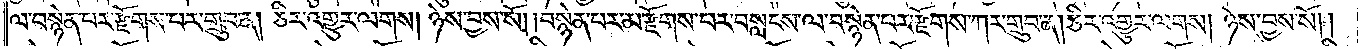ལ་བསྙེན་པར་རྫོགས་པར་གྲུབ་ན། ཅིར་འགྱུར་ལགས། ཉེས་བྱས་སོ། །བསྙེན་པར་མ་རྫོགས་པར་བསླངས་ལ་བསྙེན་པར་རྫོགས་ཀར་གྲུབ་ན། ཅིར་འགྱུར་ལགས། ཉེས་བྱས་སོ། །
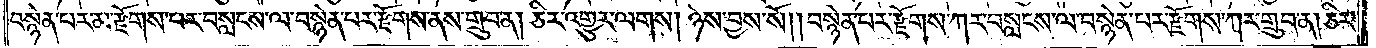བསྙེན་པར་མ་རྫོགས་པར་བསླངས་ལ་བསྙེན་པར་རྫོགས་ནས་གྲུབ་ན། ཅིར་འགྱུར་ལགས། ཉེས་བྱས་སོ། །བསྙེན་པར་རྫོགས་ཀར་བསླངས་ལ་བསྙེན་པར་རྫོགས་ཀར་གྲུབ་ན། ཅིར་
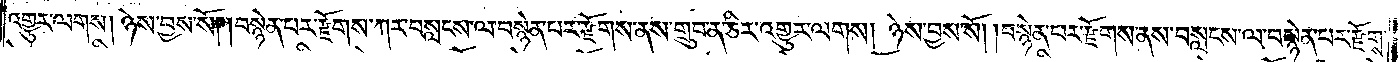འགྱུར་ལགས། ཉེས་བྱས་སོ། །བསྙེན་པར་རྫོགས་ཀར་བསླངས་ལ་བསྙེན་པར་རྫོགས་ནས་གྲུབ་ན་ཅིར་འགྱུར་ལགས། ཉེས་བྱས་སོ། །བསྙེན་པར་རྫོགས་ནས་བསླངས་ལ་བསྙེན་པར་རྫོགས་
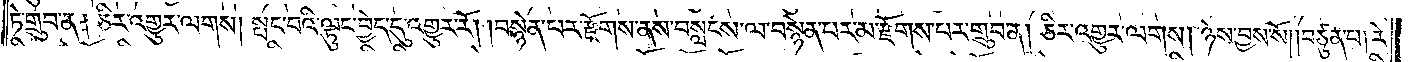ཏེ་གྲུབ་ན། ཅིར་འགྱུར་ལགས། སྤང་བའི་ལྟུང་བྱེད་དུ་འགྱུར་རོ། །བསྙེན་པར་རྫོགས་ནས་བསླངས་ལ་བསྙེན་པར་མ་རྫོགས་པར་གྲུབ་ན། ཅིར་འགྱུར་ལགས། ཉེས་བྱས་སོ། །བཙུན་པ། རེ་
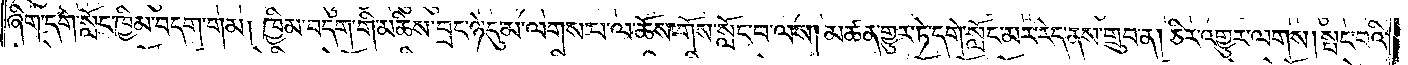ཞིག་དགེ་སློང་ཁྱིམ་བདག་གམ། ཁྱིམ་བདག་གི་མཆིས་བྲང་ཉེ་དུ་མ་ལགས་པ་ལ་ཆོས་གོས་སློང་བ་ལས། མཚན་གྱུར་ཏེ་དགེ་སློང་མར་རེད་ནས་གྲུབ་ན། ཅིར་འགྱུར་ལགས། སྤང་བའི་
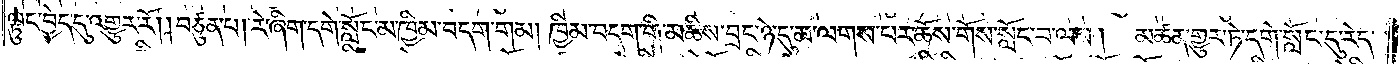ལྟུང་བྱེད་དུ་འགྱུར་རོ། །བཙུན་པ། རེ་ཞིག་དགེ་སློང་མ་ཁྱིམ་བདག་གམ། ཁྱིམ་བདག་གི་མཆིས་བྲང་ཉེ་དུ་མ་ལགས་པར་ཆོས་གོས་སློང་བ་ལས། མཚན་གྱུར་ཏེ་དགེ་སློང་དུ་རེད་
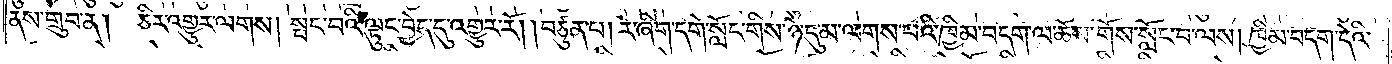ནས་གྲུབ་ན། ཅིར་འགྱུར་ལགས། སྤང་བའི་ལྟུང་བྱེད་དུ་འགྱུར་རོ། །བཙུན་པ། རེ་ཞིག་དགེ་སློང་གིས་ཉེ་དུ་མ་ལགས་པའི་ཁྱིམ་བདག་ལ་ཆོས་གོས་སློང་བ་ལས། ཁྱིམ་བདག་དེའི་
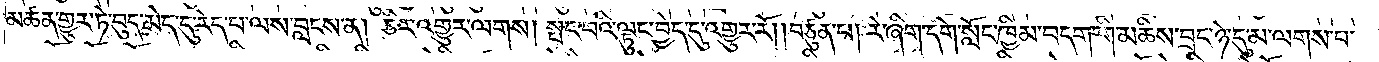མཚན་གྱུར་ཏེ་བུད་མེད་དུ་རེད་པ་ལས་བླངས་ན། ཅིར་འགྱུར་ལགས། སྤང་བའི་ལྟུང་བྱེད་དུ་འགྱུར་རོ། །བཙུན་པ། རེ་ཞིག་དགེ་སློང་ཁྱིམ་བདག་གི་མཆིས་བྲང་ཉེ་དུ་མ་ལགས་པ་
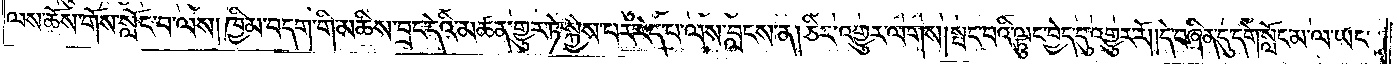ལས་ཆོས་གོས་སློང་བ་ལས། ཁྱིམ་བདག་གི་མཆིས་བྲང་དེའི་མཚན་གྱུར་ཏེ་སྐྱེས་པར་རེད་པ་ལས་བླངས་ན། ཅིར་འགྱུར་ལགས། སྤང་བའི་ལྟུང་བྱེད་དུ་འགྱུར་རོ། །དེ་བཞིན་དུ་དགེ་སློང་མ་ལ་ཡང་
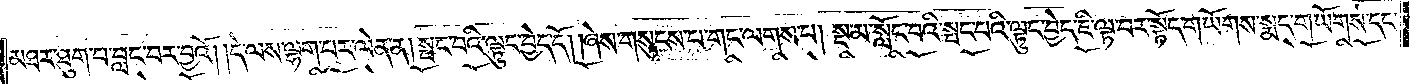མཐར་ཐུག་པ་བླང་བར་བྱའོ། །དེ་ལས་ལྷག་པར་ལེན་ན། སྤང་བའི་ལྟུང་བྱེད་དོ། །ཞེས་གསུངས་པ་གང་ལགས་པ། སྔ་མ་སློང་བའི་སྤང་པའི་ལྟུང་བྱེད་ཇི་ལྟ་བར་སྟོད་གཡོགས་སྨད་གཡོགས་དང་
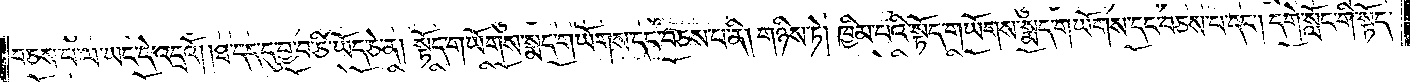བཅས་པ་ལ་ཡང་དེ་འདྲའོ། །ཐ་དད་དུ་བྱ་བ་ཅི་ཡོད་ཅེ་ན། སྟོད་གཡོགས་སྨད་གཡོགས་དང་བཅས་པ་ནི། གཉིས་ཏེ། ཁྱིམ་པའི་སྟོད་གཡོགས་སྨད་གཡོགས་དང་བཅས་པ་དང༌། དགེ་སློང་གི་སྟོད་
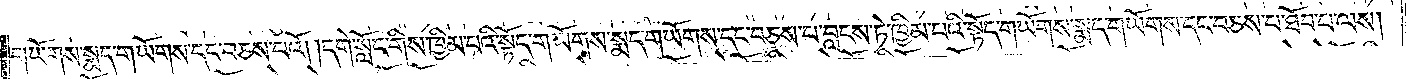གཡོགས་སྨད་གཡོགས་དང་བཅས་པའོ། །དགེ་སློང་གིས་ཁྱིམ་པའི་སྟོད་གཡོགས་སྨད་གཡོགས་དང་བཅས་པ་བླངས་ཏེ་ཁྱིམ་པའི་སྟོད་གཡོགས་སྨད་གཡོགས་དང་བཅས་པ་ཐོབ་པ་ལས།
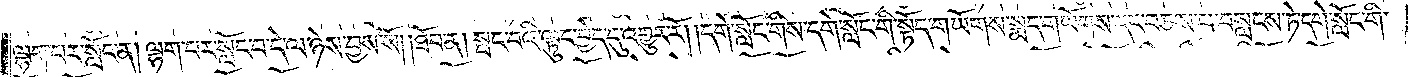ལྷག་པར་སློང་ན། ལྷག་པར་སློང་བ་དེ་ལ་ཉེས་བྱས་སོ། །ཐོབ་ན། སྤང་བའི་ལྟུང་བྱེད་དུ་འགྱུར་རོ། །དགེ་སློང་གིས་དགེ་སློང་གི་སྟོད་གཡོགས་སྨད་གཡོགས་དང་བཅས་པ་བསླངས་ཏེ་དགེ་སློང་གི་
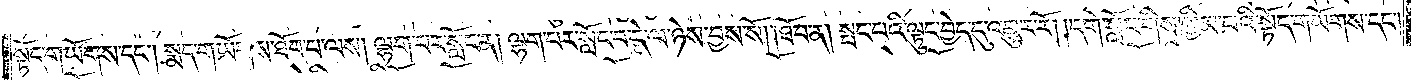སྟོད་གཡོགས་དང༌། སྨད་གཡོགས་ཐོབ་པ་ལས། ལྷག་པར་སློང་ན། ལྷག་པར་སློང་བ་དེ་ལ་ཉེས་བྱས་སོ། །ཐོབ་ན། སྤང་བའི་ལྟུང་བྱེད་དུ་འགྱུར་རོ། །དགེ་སློང་གིས་ཁྱིམ་པའི་སྟོད་གཡོགས་དང༌།
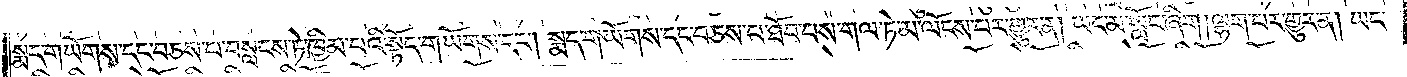སྨད་གཡོགས་དང་བཅས་པ་བསླངས་ཏེ་ཁྱིམ་པའི་སྟོད་གཡོགས་དང༌། སྨད་གཡོགས་དང་བཅས་པ་ཐོབ་པས་གལ་ཏེ་མ་ལོངས་པར་གྱུར་ན། ཡང་མ་སློང་ཞིག། ལྷག་པར་གྱུར་ན། ཡང་
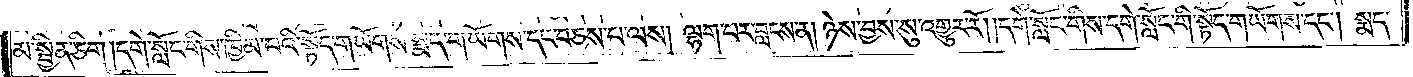མ་སྦྱིན་ཅིག །དགེ་སློང་གིས་ཁྱིམ་པའི་སྟོད་གཡོགས་སྨད་གཡོགས་དང་བཅས་པ་ལས། ལྷག་པར་བླངས་ན། ཉེས་བྱས་སུ་འགྱུར་རོ། །དགེ་སློང་གིས་དགེ་སློང་གི་སྟོད་གཡོགས་དང༌། སྨད་
